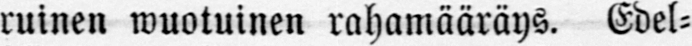ruinen wuotuinen rahamääräys. Edel-
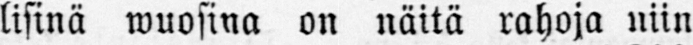lisinä wuosina on näitä rahoja niin
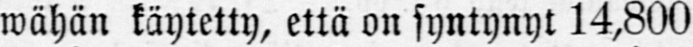wähän käytetty, että on syntynyt 14,800
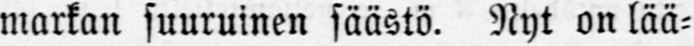markan suuruinen säästö. Nyt on lää-
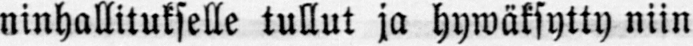ninhallitukselle tullut ja hywäksytty niin
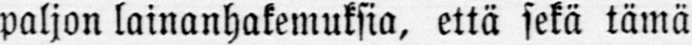paljon lainanhakemuksia, että sekä tämä
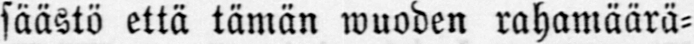säästö että tämän wuoden rahamäärä-
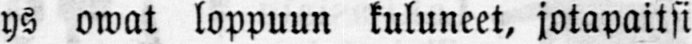ys owat loppuun kuluneet, jotapaitsi
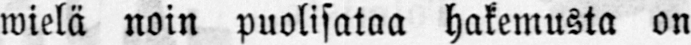wielä noin puolisataa hakemusta on
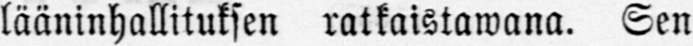lääninhallituksen ratkaistawana. Sen
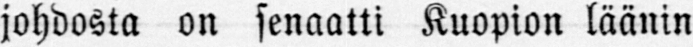johdosta on senaatti Kuopion läänin
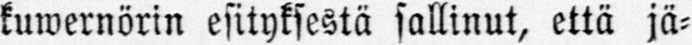kuwernörin esityksestä sallinut, että jä-
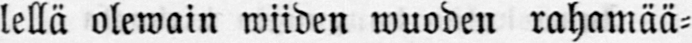lellä olewain wiiden wuoden rahamää-
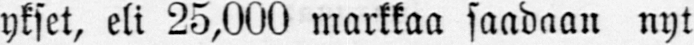ykset, eli 25,000 markkaa saadaan nyt
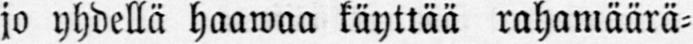jo yhdellä haawaa käyttää rahamäärä-
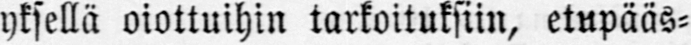yksellä oiottuihin tarkoituksiin, etupääs-
